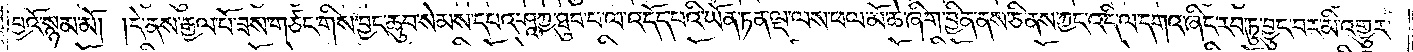བྱའོ་སྙམ་མོ། །དེ་ནས་རྒྱལ་པོ་ཟས་གཙང་གིས་བྱང་ཆུབ་སེམས་དཔའ་ཤཱཀྱ་ཐུབ་པ་ལ་འདོད་པའི་ཡོན་ཏན་ལྔ་ལས་ཕལ་མོ་ཆེ་ཞིག་བྱིན་ནས་ཅི་ནས་ཀྱང་འདི་ལ་དགའ་ཞིང་རབ་ཏུ་བྱུང་བར་མི་འགྱུར་
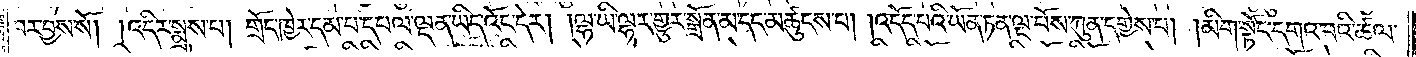བར་བྱས་སོ། །འདིར་སྨྲས་པ། གྲོང་ཁྱེར་དམ་པ་དཔལ་ལྡན་ཡིད་འོང་དེར། །ལྷ་ཡི་ལྷར་གྱུར་སྒྲོན་མ་དང་མཚུངས་པ། །འདོད་པའི་ཡོན་ཏན་ལྔ་པོས་ཀུན་དགྱེས་པ། །མིག་སྟོང་དགའ་བའི་ཚལ་
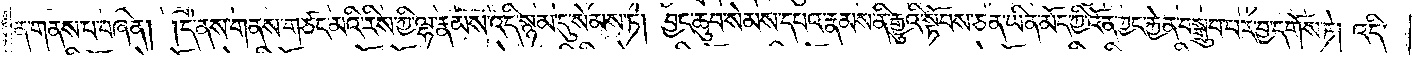ན་གནས་པ་བཞིན། །དེ་ནས་གནས་གཙང་མའི་རིས་ཀྱི་ལྷ་རྣམས་འདི་སྙམ་དུ་སེམས་ཏེ། བྱང་ཆུབ་སེམས་དཔའ་རྣམས་ནི་རྒྱུའི་སྟོབས་ཅན་ཡིན་མོད་ཀྱི་འོན་ཀྱང་རྐྱེན་བསྒྲུབ་པར་བྱ་དགོས་ཏེ། འདི་
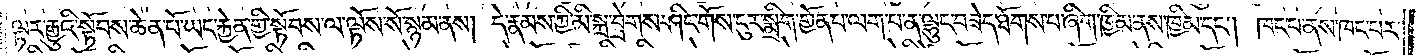ལྟར་རྒྱུའི་སྟོབས་ཆེན་པོ་ཡང་རྐྱེན་གྱི་སྟོབས་ལ་ལྟོས་སོ་སྙམ་ནས། དེ་རྣམས་ཀྱི་མི་སྐྲ་བྲེགས་ཤིང་གོས་ངུར་སྨྲིག་གྱོན་པ་ལག་པ་ན་ལྷུང་བཟེད་ཐོགས་པ་ཞིག་ཁྱིམ་ནས་ཁྱིམ་དང༌། ཁང་པ་ནས་ཁང་པར་
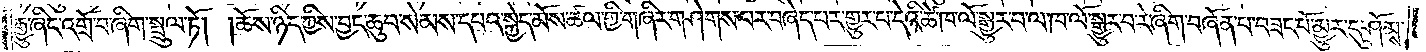རྒྱུ་ཞིང་འགྲོ་བ་ཞིག་སྤྲུལ་ཏོ། །ཆོས་ཉིད་ཀྱིས་བྱང་ཆུབ་སེམས་དཔའ་སྐྱེད་མོས་ཚལ་གྱི་གཞིར་གཤེགས་པར་བཞེད་པར་གྱུར་པ་དེའི་ཚེ་ཁ་ལོ་སྒྱུར་བ་ལ་ཁ་ལོ་སྒྱུར་བ་རེ་ཞིག་བཞོན་པ་བཟང་པོ་མྱུར་དུ་ཤོམས་
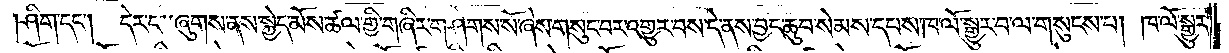།ཤིག་དང༌། དེར་ང་ཞུགས་ནས་སྐྱེད་མོས་ཚལ་གྱི་གཞིར་གཤེགས་སོ་ཞེས་གསུང་བར་འགྱུར་བས་དེ་ནས་བྱང་ཆུབ་སེམས་དཔས་ཁ་ལོ་སྒྱུར་བ་ལ་གསུངས་པ། ཁ་ལོ་སྒྱུར་
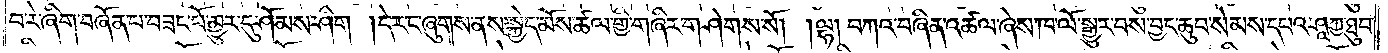བ་རེ་ཞིག་བཞོན་པ་བཟང་པོ་མྱུར་དུ་ཤོམས་ཤིག །དེར་ང་ཞུགས་ནས་སྐྱེད་མོས་ཚལ་གྱི་གཞིར་གཤེགས་སོ། །ལྷ། བཀའ་བཞིན་འཚལ་ཞེས་ཁ་ལོ་སྒྱུར་བས་བྱང་ཆུབ་སེམས་དཔའ་ཤཱཀྱ་ཐུབ་
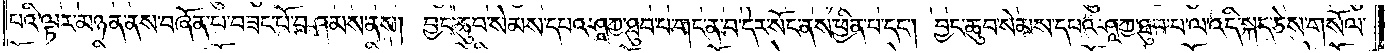པའི་ལྟར་མཉན་ནས་བཞོན་པ་བཟང་པོ་བཤམས་ནས། བྱང་ཆུབ་སེམས་དཔའ་ཤཱཀྱ་ཐུབ་པ་གང་ན་བ་དེར་སོང་ནས་ཕྱིན་པ་དང༌། བྱང་ཆུབ་སེམས་དཔའ་ཤཱཀྱ་ཐུབ་པ་ལ་འདི་སྐད་ཅེས་གསོལ་
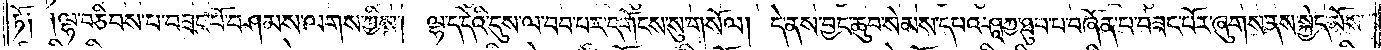ཏོ། །ལྷ་བཅིབས་པ་བཟང་པོ་བཤམས་ལགས་ཀྱིས། ལྷ་ད་དེའི་དུས་ལ་བབ་པར་དགོངས་སུ་གསོལ། དེ་ནས་བྱང་ཆུབ་སེམས་དཔའ་ཤཱཀྱ་ཐུབ་པ་བཞོན་པ་བཟང་པོར་ཞུགས་ནས་སྐྱེད་མོས་
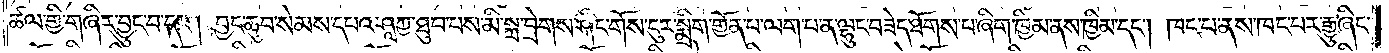ཚལ་གྱི་གཞིར་བྱུང་བ་དང༌། བྱང་ཆུབ་སེམས་དཔའ་ཤཱཀྱ་ཐུབ་པས་མི་སྐྲ་བྲེགས་ཤིང་གོས་ངུར་སྨྲིག་གྱོན་པ་ལག་པ་ན་ལྷུང་བཟེད་ཐོགས་པ་ཞིག་ཁྱིམ་ནས་ཁྱིམ་དང༌། ཁང་པ་ནས་ཁང་པར་རྒྱུ་ཞིང་
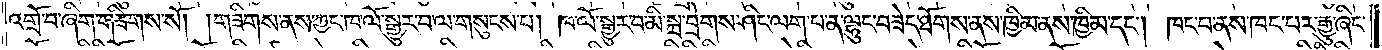འགྲོ་བ་ཞིག་གཟིགས་སོ། །གཟིགས་ནས་ཀྱང་ཁ་ལོ་སྒྱུར་བ་ལ་གསུངས་པ། ཁ་ལོ་སྒྱུར་བ་མི་སྐྲ་བྲེགས་ཤིང་ལག་པ་ན་ལྷུང་བཟེད་ཐོགས་ནས་ཁྱིམ་ནས་ཁྱིམ་དང༌། ཁང་ང་ནས་ཁང་པར་རྒྱུ་ཞིང་
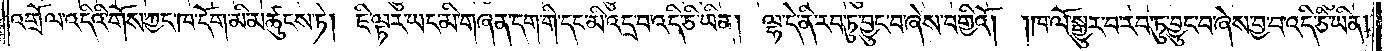འགྲོལ་འདིའི་གོས་ཀྱང་ཁ་དོག་མི་མཚུངས་ཏེ། ཇི་ལྟར་ཡང་མི་གཞན་དག་གི་དང་མི་འདྲ་བ་འདི་ཅི་ཡིན། ལྷ་དེ་ནི་རབ་ཏུ་བྱུང་བ་ཞེས་བགྱིའོ། །ཁ་ལོ་སྒྱུར་བ་རབ་ཏུ་བྱུང་བ་ཞེས་བྱ་བ་འདི་ཅི་ཡིན།
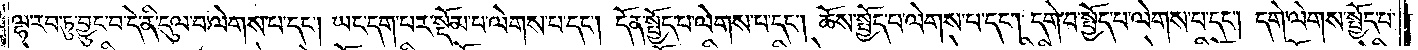ལྷ་རབ་ཏུ་བྱུང་བ་དེ་ནི་དུལ་བ་ལེགས་པ་དང༌། ཡང་དག་པར་སྡོམ་པ་ལེགས་པ་དང༌། དོན་སྤྱོད་པ་ལེགས་པ་དང༌། ཆོས་སྤྱོད་པ་ལེགས་པ་དང༌། དགེ་བ་སྤྱོད་པ་ལེགས་པ་དང༌། དགེ་ལེགས་སྤྱོད་པ་
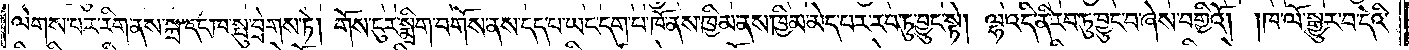ལེགས་པར་རིག་ནས་སྐྲ་དང་ཁ་སྤུ་བྲེགས་ཏེ། གོས་ངུར་སྨྲིག་བགོས་ནས་དད་པ་ཡང་དག་པ་ཁོ་ནས་ཁྱིམ་ནས་ཁྱིམ་མེད་པར་རབ་ཏུ་བྱུང་སྟེ། ལྷ་འདི་ནི་རབ་ཏུ་བྱུང་བ་ཞེས་བགྱིའོ། །ཁ་ལོ་སྒྱུར་བ་དེའི་
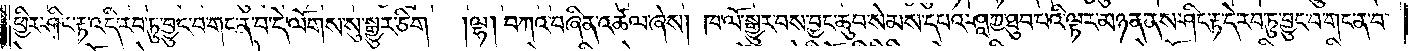ཕྱིར་ཤིང་རྟ་འདི་རབ་ཏུ་བྱུང་བ་གང་ན་བ་དེ་ལོགས་སུ་སྒྱུར་ཅིག །ལྷ། བཀའ་བཞིན་འཚལ་ཞེས། ཁ་ལོ་སྒྱུར་བས་བྱང་ཆུབ་སེམས་དཔའ་ཤཱཀྱ་ཐུབ་པའི་ལྟར་མཉན་ནས་ཤིང་རྟ་དེ་རབ་ཏུ་བྱུང་བ་གང་ན་བ་
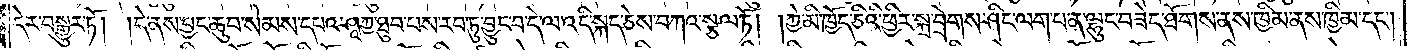དེར་བསྒྱུར་ཏོ། །དེ་ནས་བྱང་ཆུབ་སེམས་དཔའ་ཤཱཀྱ་ཐུབ་པས་རབ་ཏུ་བྱུང་བ་དེ་ལ་འདི་སྐད་ཅེས་བཀའ་སྩལ་ཏོ། །ཀྱེ་མི་ཁྱོད་ཅིའི་ཕྱིར་སྐྲ་བྲེགས་ཤིང་ལག་པ་ན་ལྷུང་བཟེད་ཐོགས་ནས་ཁྱིམ་ནས་ཁྱིམ་དང༌།
